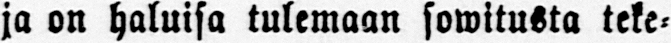ja on haluisa tulemaan sowitusta teke-
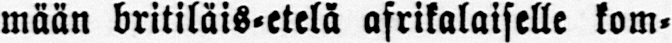mään britiläis-etelä afrikalaiselle kom-
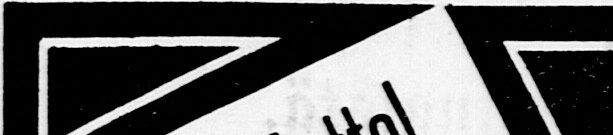Uutta! Uutta!
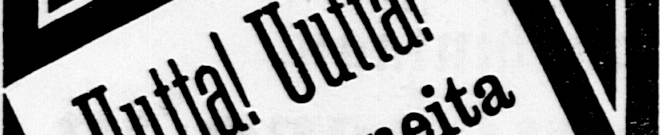Pesukoneita
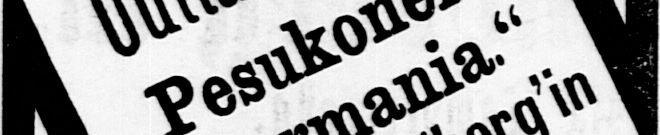„Germania."
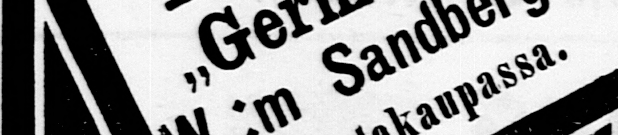W:m Sandberg'in
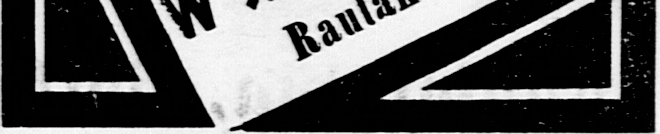Rautakaupassa.
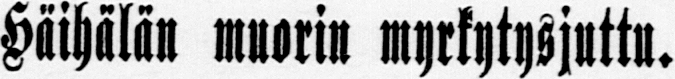Häihälän muorin myrkytysjuttu.
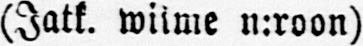(Jatk. wiime n:roon)
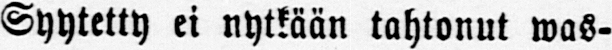Syytetty ei nytkään tahtonut was-
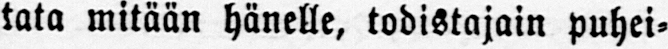tata mitään hänelle, todistajain puhei-
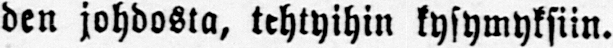den johdosta, tehtyihin kysymyksiin.
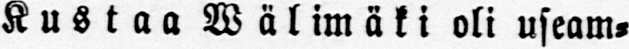Kustaa Wälimäki oli useam-
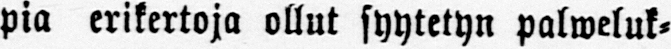pia erikertoja ollut syytetyn palweluk-
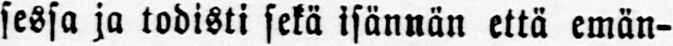sessa ja todisti sekä isännän että emän-
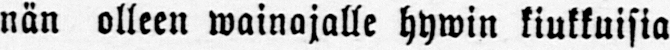nän olleen wainajalle hywin kiukkuisia
